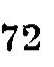72
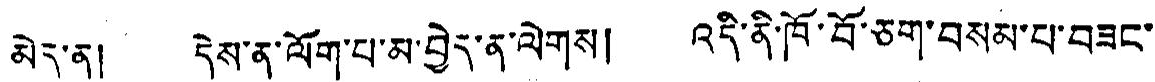མེད་ན། དེས་ན་ལོག་པ་མ་བྱེད་ན་ལེགས། འདི་ནི་ཁོ་བོ་ཅག་བསམ་པ་བཟང་
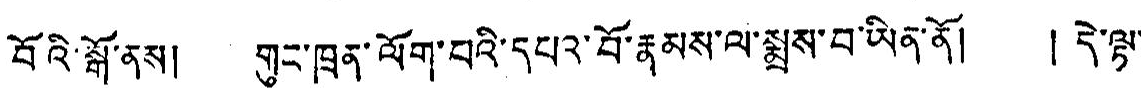བོའི་སྒོ་ནས། གུང་ཁྲན་ལོག་པའི་དཔའ་བོ་རྣམས་ལ་སྨྲས་བ་ཡིན་ནོ། ། དེ་ལྟ་
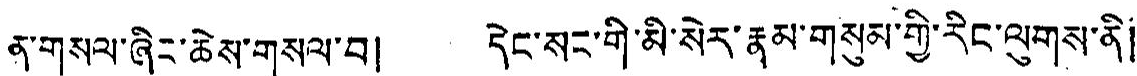ནི་གསལ་ཞིང་ཆེས་གསལ་བ། དེང་སང་གི་མི་སེར་རྣམ་གསུམ་གྱི་རིང་ལུགས་ནི།
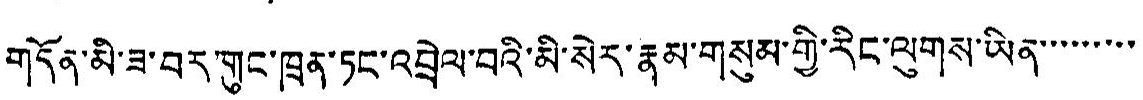གདོན་མི་ཟ་བར་གུང་ཁྲན་ཏང་འབྲེལ་བའི་མི་སེར་རྣམ་གསུམ་གྱི་རིང་ལུགས་ཡིན་་་་་་་་་
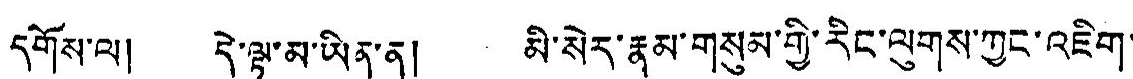དགོས་ལ། དེ་ལྟ་མ་ཡིན་ན། མི་སེར་རྣམ་གསུམ་གྱི་རིང་ལུགས་ཀྱང་འཇིག་
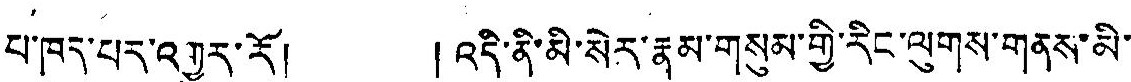པ་ཁད་པར་འགྱུར་རོ། །འདི་ནི་མི་སེར་རྣམ་གསུམ་གྱི་རིང་ལུགས་གནས་མི་
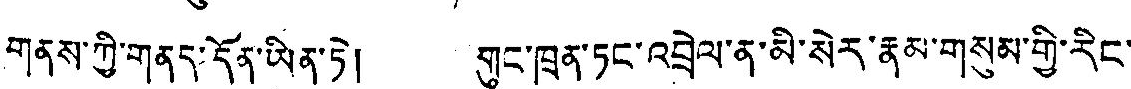གནས་ཀྱི་གནད་དོན་ཡིན་ཏེ། གུང་ཁྲན་ཏང་འབྲེལ་ན་མི་སེར་རྣམ་གསུམ་གྱི་རིང་
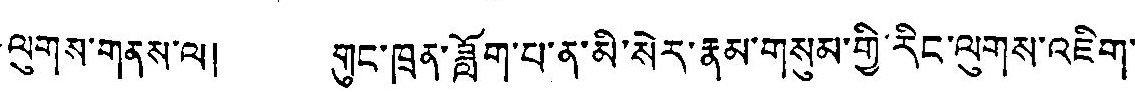ལུགས་གནས་ལ། གུང་ཁྲན་ཟློག་པ་ན་མི་སེར་རྣམ་གསུམ་གྱི་རིང་ལུགས་འཇིག་
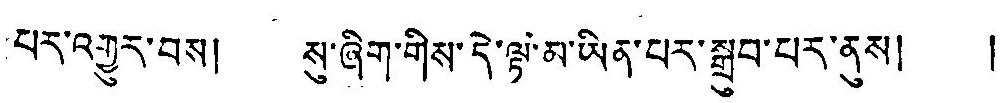པར་འགྱུར་བྱས། སུ་ཞིག་གིས་དེ་ལྟ་མ་ཡིན་པར་སྒྲུབ་པར་ནས། །
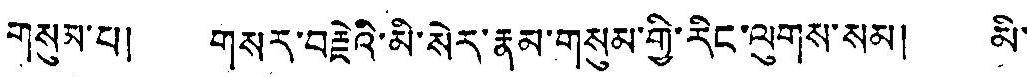གསུམ་པ། གསར་བརྗེའི་མི་སེར་རྣམ་གསུམ་གྱི་རིང་ལུགས་སམ། མི་
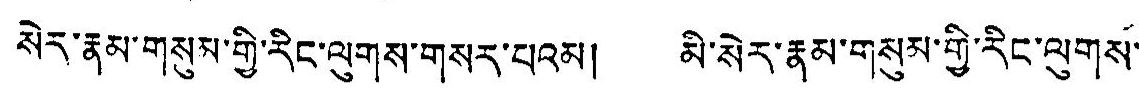སེར་རྣམ་གསུམ་གྱི་རིང་ལུགས་གསར་པའམ། མི་སེར་རྣམ་གསུམ་གྱི་རིང་ལུགས་
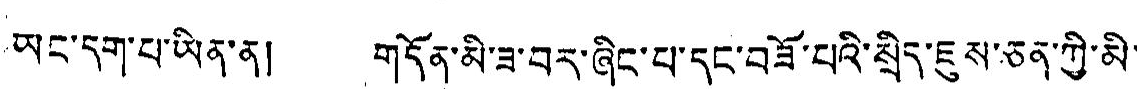ཡང་དག་པ་ཡིན་ན། གདོན་མི་ཟ་བར་ཞིང་པ་དང་བཟོ་པའི་སྲིད་ཇུས་ཅན་ཀྱི་མི་
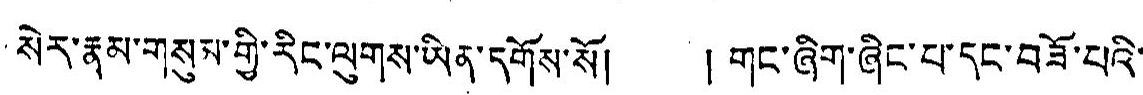སེར་རྣམ་གསུལ་གྱི་རིང་ལུགས་ཡིན་དགོས་སོ། །གང་ཞིག་ཞིང་པ་དང་བཟོ་པའི་
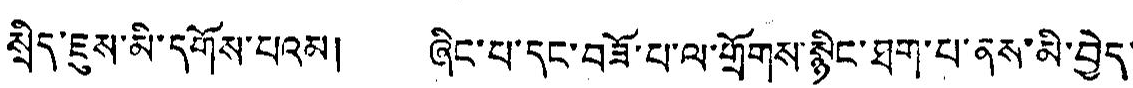སྲིད་ཇུས་མི་དགོས་པའམ། ཞིང་པ་དང་བཟོ་པ་ལ་གྲོགས་སྙིང་ཐག་པ་ནས་མི་བྱེད་
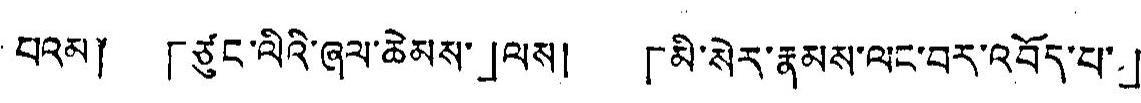བའམ༐ 「ཙུང་ལིའི་ཞལ་ཆེམས་」ལས། 「མི་སེར་རྣམས་ལུང་བར་འབོད་པ་」
